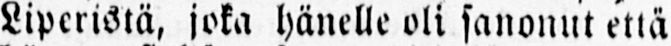Liperistä, joka hänelle oli sanonut että
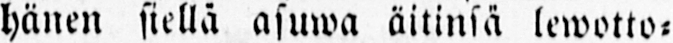hänen siellä astuwa äitinsä lewotto-
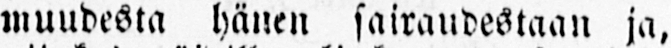muudesta hänen sairaudestaan ja,
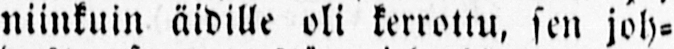niinkuin äidille oli kerrottu, sen joh-
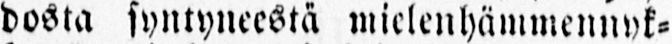dosta syntyneestä mielenhämmennyk-
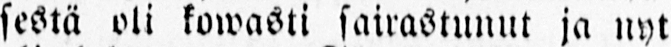sestä oli kowasti sairastunut ja nyt
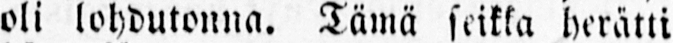oli lohdutonna. Tämä seikka herätti
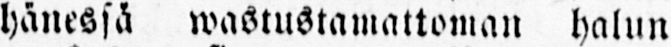hänessä wastustamattoman halun
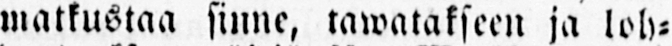matkustaa sinne, tawatakseen ja loh-
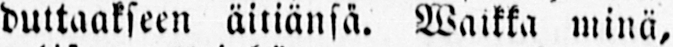duttaakseen äitiänsä. Waikka minä,
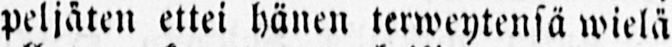peljäten ettei hänen terweytensä wielä
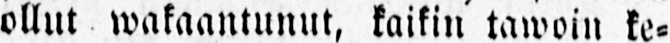ollut wakaantunut, kaikin tawoin ke-
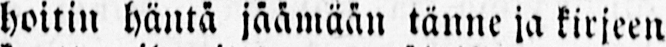hoitin häntä jäämään tänne ja kirjeen
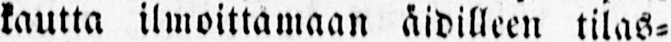kautta ilmoittamaan äidilleen tilas-
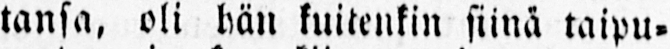tansa, oli hän kuitenkin siinä taipu-
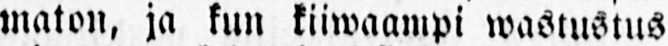maton, ja kun kiiwaampi wastustus
